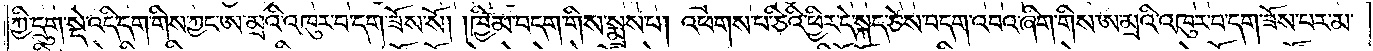ཀྱི་དྲུག་སྡེ་འདི་དག་གིས་ཀྱང་ཨ་མྲའི་འཁུར་བ་དག་ཟོས་སོ། །ཁྱིམ་བདག་གིས་སྨྲས་པ། འཕགས་པ་ཅིའི་ཕྱིར་དེ་སྐད་ཅེས་བདག་འབའ་ཞིག་གིས་ཨ་མྲའི་འཁུར་བ་དག་ཟོས་པར་མ་
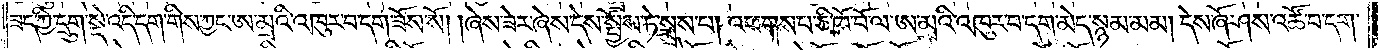ཟད་ཀྱི་དྲུག་སྡེ་འདི་དག་གིས་ཀྱང་ཨ་མྲའི་འཁུར་བ་དག་ཟོས་སོ། །ཞེས་ཟེར་ཞེས་དེས་སྤྱོས་ཏེ་སྨྲས་པ། འཕགས་པ་ཅི་ཁོ་བོ་ལ་ཨ་མྲའི་འཁུར་བ་དག་མེད་སྙམ་མམ། དེས་ཞོ་ཤས་འཚོ་བ་དག་
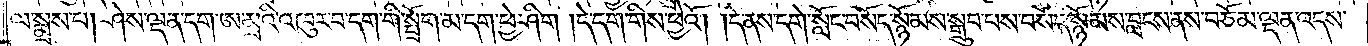ལ་སྨྲས་པ། ཤེས་ལྡན་དག་ཨ་མྲའི་འཁུར་བ་དག་གིས་སྤྲོག་མ་དག་ཕྱེ་ཤིག །དེ་དག་གིས་ཕྱེའོ། །དེ་ནས་དགེ་སློང་བསོད་སྙོམས་སྒྲུབ་པས་བསོད་སྙོམས་བླངས་ནས་བཅོམ་ལྡན་འདས་
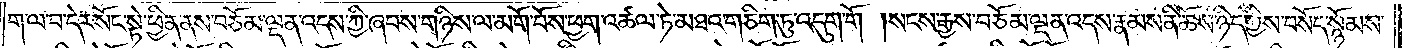ག་ལ་བ་དེར་སོང་སྟེ་ཕྱིན་ནས་བཅོམ་ལྡན་འདས་ཀྱི་ཞབས་གཉིས་ལ་མགོ་བོས་ཕྱག་འཚལ་ཏེ་མཐའ་གཅིག་ཏུ་འདུག་གོ །སངས་རྒྱས་བཅོམ་ལྡན་འདས་རྣམས་ནི་ཆོས་ཉིད་ཀྱིས་བསོད་སྙོམས་
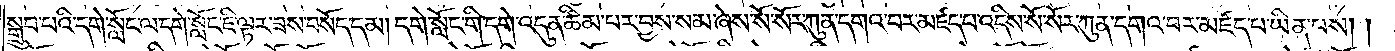སྒྲུབ་པའི་དགེ་སློང་ལ་དགེ་སློང་ཇི་ལྟར་ཟས་བསོད་དམ། དགེ་སློང་གི་དགེ་འདུན་ཚིམ་པར་བྱས་སམ་ཞེས་སོ་སོར་ཀུན་དགའ་བར་མཛད་པ་འདིས་སོ་སོར་ཀུན་དགའ་བར་མཛད་པ་ཡིན་པས། །
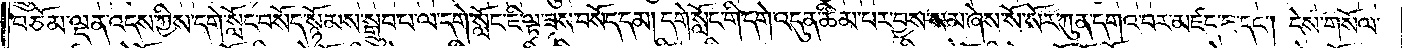བཅོམ་ལྡན་འདས་ཀྱིས་དགེ་སློང་བསོད་སྙོམས་སྒྲུབ་པ་ལ་དགེ་སློང་ཇི་ལྟ་ཟས་བསོད་དམ། དགེ་སློང་གི་དགེ་འདུན་ཚིམ་པར་བྱས་སམ་ཞེས་སོ་སོར་ཀུན་དགའ་བར་མཛད་པ་དང༌། དེས་གསོལ་
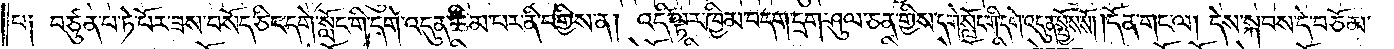པ༑ བཙུན་པ་ཏེ་པོར་ཟས་བསོད་ཅིང་དགེ་སློང་གི་དགེ་འདུན་ཚིམ་པར་ནི་བགྱིས་ན། འདི་ལྟར་ཁྱིམ་བདག་དྲག་ཤུལ་ཅན་གྱིས་དགེ་སློང་གི་དགེ་འདུན་སྤྱོས་སོ། །དོན་གང་ལ། དེས་སྐབས་དེ་བཅོམ་
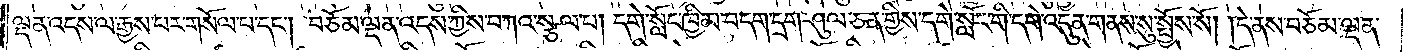ལྡན་འདས་ལ་རྒྱས་པར་གསོལ་པ་དང༌། བཅོམ་ལྡན་འདས་ཀྱིས་བཀའ་སྩལ་པ། དགེ་སློང་ཁྱིམ་བདག་དྲག་ཤུལ་ཅན་གྱིས་དགེ་སློང་གི་དགེ་འདུན་གནས་སུ་སྤྱོས་སོ། །དེ་ནས་བཅོམ་ལྡན་
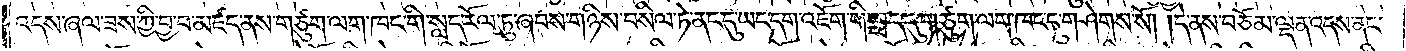འདས་ཞལ་ཟས་ཀྱི་བྱ་བ་མཛད་ནས་གཙུག་ལག་ཁང་གི་སླད་རོལ་ཏུ་ཞབས་གཉིས་བསིལ་ཏེ་ནང་དུ་ཡང་དག་འཇོག་གི་སླད་དུ་གཙུག་ལག་ཁང་དུ་གཤེགས་སོ། །དེ་ནས་བཅོམ་ལྡན་འདས་ནང་
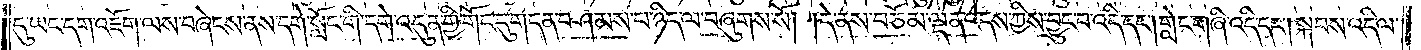དུ་ཡང་དག་འཇོག་ལས་བཞེངས་ནས་དགེ་སློང་གི་དགེ་འདུན་གྱི་གོང་དུ་གདན་བཤམས་པ་ཉིད་ལ་བཞུགས་སོ། །དེ་ནས་བཅོམ་ལྡན་འདས་ཀྱིས་བྱུང་བ་འདི་དང༌། གླེང་གཞི་འདི་དང༌། སྐབས་འདི་ལ་
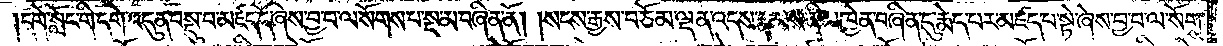དགེ་སློང་གི་དགེ་འདུན་བསྡུ་བ་མཛད་དོ་ཞེས་བྱ་བ་ལ་སོགས་པ་སྔ་མ་བཞིན་ནོ། །སངས་རྒྱས་བཅོམ་ལྡན་འདས་རྣམས་ནི་མཁྱེན་བཞིན་དུ་རྨེད་པར་མཛད་པ་སྟེ་ཞེས་བྱ་བ་ལ་སོགས་
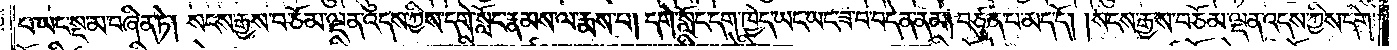པ་ཡང་སྔ་མ་བཞིན་ཏེ། སངས་རྒྱས་བཅོམ་ལྡན་འདས་ཀྱིས་དགེ་སློང་རྣམས་ལ་རྨས་པ། དགེ་སློང་དག་ཁྱེད་ཡང་ཡང་ཟ་བ་བདེན་ནམ། བཙུན་པ་མད་དོ། །སངས་རྒྱས་བཅོམ་ལྡན་འདས་ཀྱིས་དགེ་
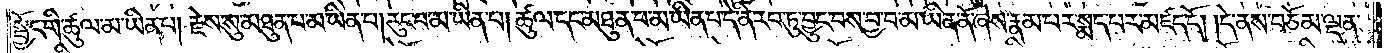སྦྱོང་གི་ཚུལ་མ་ཡིན་པ། རྗེས་སུ་མཐུན་པ་མ་ཡིན་པ། རུང་བ་མ་ཡིན་པ། ཚུལ་དང་མཐུན་པ་མ་ཡིན་པ་དེ་ནི་རབ་ཏུ་བྱུང་བས་བྱ་བ་མ་ཡིན་ནོ་ཞེས་རྣམ་པར་སྨད་པར་མཛད་དོ། །དེ་ནས་བཅོམ་ལྡན་
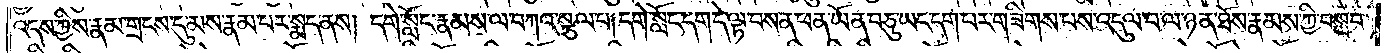འདས་ཀྱིས་རྣམ་གྲངས་དུ་མས་རྣམ་པར་སྨད་ནས། དགེ་སློང་རྣམས་ལ་བཀའ་སྩལ་པ། དགེ་སློང་དག་དེ་ལྟ་བས་ན་ཕན་ཡོན་བཅུ་ཡང་དག་པར་གཟིགས་པས་འདུལ་བ་ལ་ཉན་ཐོས་རྣམས་ཀྱི་བསླབ་
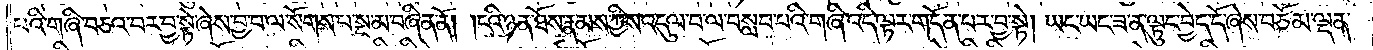པའི་གཞི་བཅའ་བར་བྱ་སྟེ་ཞེས་བྱ་བ་ལ་སོགས་པ་སྔ་མ་བཞིན་ནོ། །ངའི་ཉན་ཐོས་རྣམས་ཀྱིས་འདུལ་བ་ལ་བསླབ་པའི་གཞི་འདི་ལྟར་གདོན་པར་བྱ་སྟེ། ཡང་ཡང་ཟ་ན་ལྟུང་བྱེད་དོ་ཞེས་བཅོམ་ལྡན་
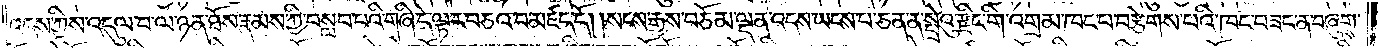འདས་ཀྱིས་འདུལ་བ་ལ་ཉན་ཐོས་རྣམས་ཀྱི་བསླབ་པའི་གཞི་དེ་ལྟར་བཅའ་བ་མཛད་དོ། །སངས་རྒྱས་བཅོམ་ལྡན་འདས་ཡངས་པ་ཅན་ན་སྤྲེའུ་རྫིང་གི་འགྲམ་ཁང་པ་བརྩེགས་པའི་ཁང་བཟང་ན་བཞུགས་
